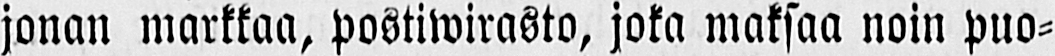jonan markkaa, postiwirasto, joka maksaa noin puo-
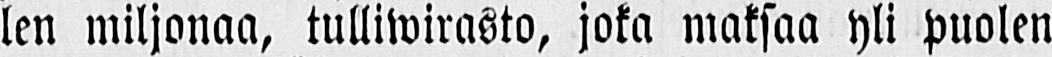len miljonaa, tulliwirasto, joka maksaa yli puolen
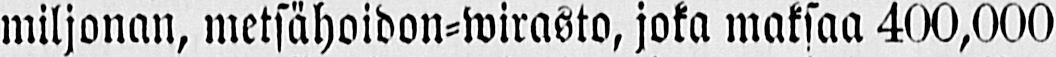miljonan, metsähoidon-wirasto, joka maksaa 400,000
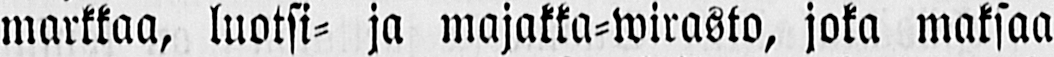markkaa, luotsi- ja majakka-wirasto, joka maksaa
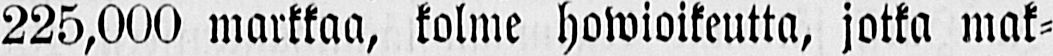225.000 markkaa, kolme howioikeutta, jotka mak-
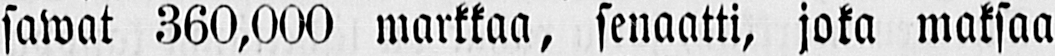sawat 360,000 markkaa, senaatti, joka maksaa
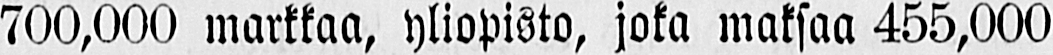700.000 markkaa, yliopisto, joka maksaa 455,000
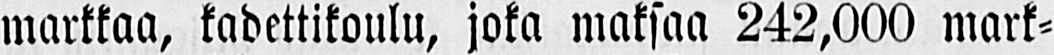markkaa, kadettikoulu, joka maksaa 242,000 mark-
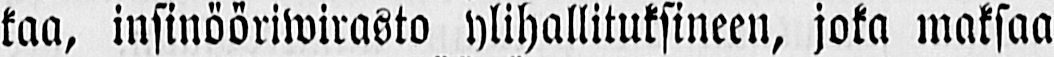kaa, insinööriwirasto ylihallituksineen, joka maksaa
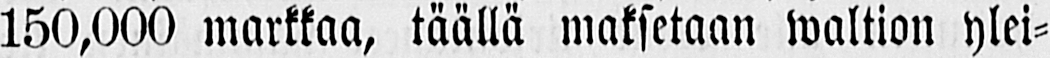150.000 markkaa, täällä maksetaan waltion ylei-
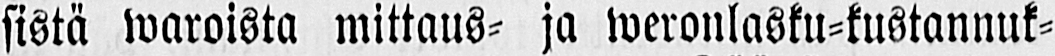sistä waroista mittaus- ja weronlasku-kustannuk-
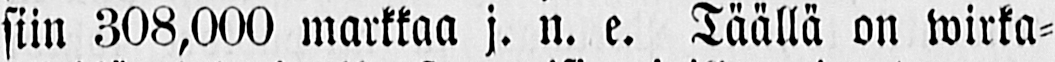siin 308,000 markkaa j. n. e. Täällä on wirka-
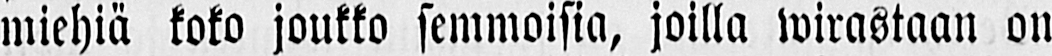miehiä koko joukko semmoisia, joilla wirastaan on
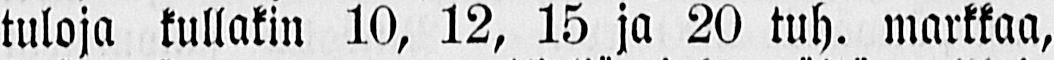tuloja kullakin 10, 12, 15 ja 20 tuh. markkaa,
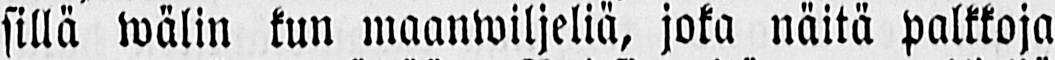sillä wälin kun maanwiljeliä, joka näitä palkkoja
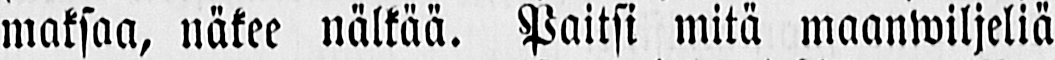maksaa, näkee nälkää. Paitsi mitä maanwiljeliä
